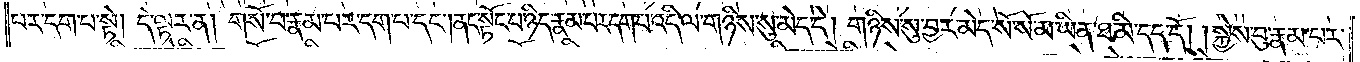པར་དག་པ་སྟེ། དེ་ལྟར་ན། གསོ་བ་རྣམ་པར་དག་པ་དང༌། ནང་སྟོང་པ་ཉིད་རྣམ་པར་དག་པ་འདི་ལ་གཉིས་སུ་མེད་དེ། གཉིས་སུ་བྱར་མེད་སོ་སོ་མ་ཡིན་ཐ་མི་དད་དོ། །སྐྱེས་བུ་རྣམ་པར་
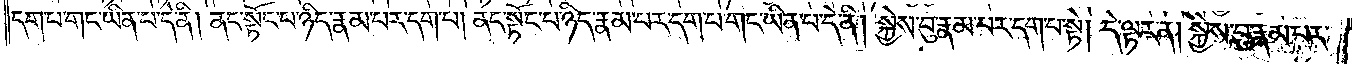དག་པ་གང་ཡིན་པ་དེ་ནི། ནང་སྟོང་པ་ཉིད་རྣམ་པར་དག་པ། ནང་སྟོང་པ་ཉིད་རྣམ་པར་དག་པ་གང་ཡིན་པ་དེ་ནི། སྐྱེས་བུ་རྣམ་པར་དག་པ་སྟེ། དེ་ལྟར་ན། སྐྱེས་བུ་རྣམ་པར་
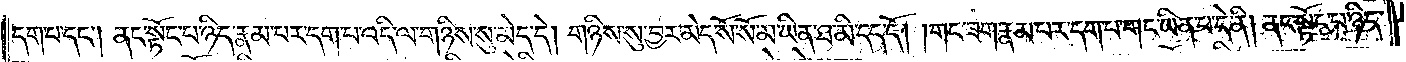དག་པ་དང༌། ནང་སྟོང་པ་ཉིད་རྣམ་པར་དག་པ་འདི་ལ་གཉིས་སུ་མེད་དེ། གཉིས་སུ་བྱར་མེད་སོ་སོ་མ་ཡིན་ཐ་མི་དད་དོ། །གང་ཟག་རྣམ་པར་དག་པ་གང་ཡིན་པ་དེ་ནི། ནང་སྟོང་པ་ཉིད་
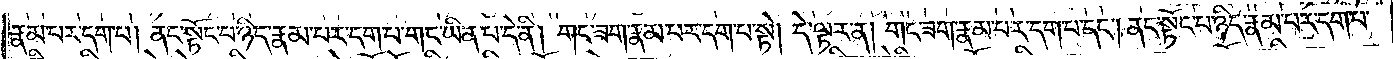རྣམ་པར་དག་པ། ནང་སྟོང་པ་ཉིད་རྣམ་པར་དག་པ་གང་ཡིན་པ་དེ་ནི། གང་ཟག་རྣམ་པར་དག་པ་སྟེ། དེ་ལྟར་ན། གང་ཟག་རྣམ་པར་དག་པ་དང༌། ནང་སྟོང་པ་ཉིད་རྣམ་པར་དག་པ་
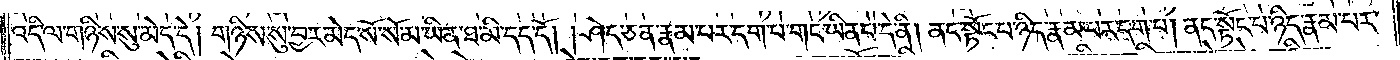འདི་ལ་གཉིས་སུ་མེད་དེ། གཉིས་སུ་བྱར་མེད་སོ་སོ་མ་ཡིན་ཐ་མི་དད་དོ། །ཤེད་ཅན་རྣམ་པར་དག་པ་གང་ཡིན་པ་དེ་ནི། ནང་སྟོང་པ་ཉིད་རྣམ་པར་དག་པ། ནང་སྟོང་པ་ཉིད་རྣམ་པར་
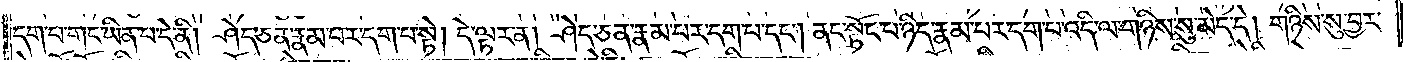དག་པ་གང་ཡིན་པ་དེ་ནི། ཤེད་ཅན་རྣམ་པར་དག་པ་སྟེ། དེ་ལྟར་ན། ཤེད་ཅན་རྣམ་པར་དག་པ་དང༌། ནང་སྟོང་པ་ཉིད་རྣམ་པར་དག་པ་འདི་ལ་གཉིས་སུ་མེད་དེ། གཉིས་སུ་བྱར་
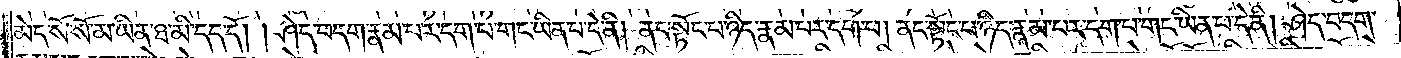མེད་སོ་སོ་མ་ཡིན་ཐ་མི་དད་དོ། །ཤེད་བདག་རྣམ་པར་དག་པ་གང་ཡིན་པ་དེ་ནི། ནང་སྟོང་པ་ཉིད་རྣམ་པར་དག་པ། ནང་སྟོང་པ་ཉིད་རྣམ་པར་དག་པ་གང་ཡིན་པ་དེ་ནི། ཤེད་བདག་
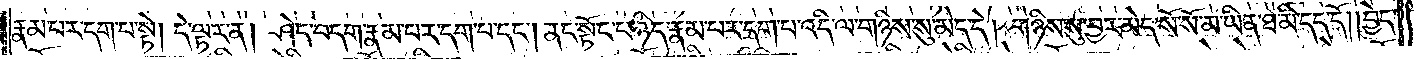རྣམ་པར་དག་པ་སྟེ། དེ་ལྟར་ན། ཤེད་བདག་རྣམ་པར་དག་པ་དང༌། ནང་སྟོང་པ་ཉིད་རྣམ་པར་དག་པ་འདི་ལ་གཉིས་སུ་མེད་དེ། གཉིས་སུ་བྱར་མེད་སོ་སོ་མ་ཡིན་ཐ་མི་དད་དོ། །བྱེད་
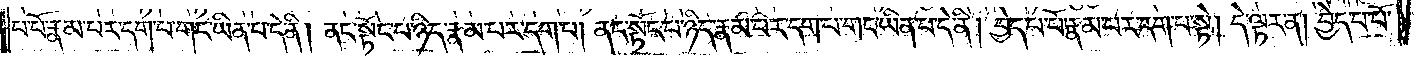པ་པོ་རྣམ་པར་དག་པ་གང་ཡིན་པ་དེ་ནི། ནང་སྟོང་པ་ཉིད་རྣམ་པར་དག་པ། ནང་སྟོང་པ་ཉིད་རྣམ་པར་དག་པ་གང་ཡིན་པ་དེ་ནི། བྱེད་པ་པོ་རྣམ་པར་དག་པ་སྟེ། དེ་ལྟར་ན། བྱེད་པ་པོ་
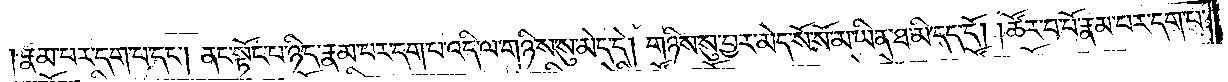རྣམ་པར་དག་པ་དང༌། ནང་སྟོང་པ་ཉིད་རྣམ་པར་དག་པ་འདི་ལ་གཉིས་སུ་མེད་དེ། གཉིས་སུ་བྱར་མེད་སོ་སོ་མ་ཡིན་ཐ་མི་དད་དོ། །ཚོར་བ་པོ་རྣམ་པར་དག་པ་
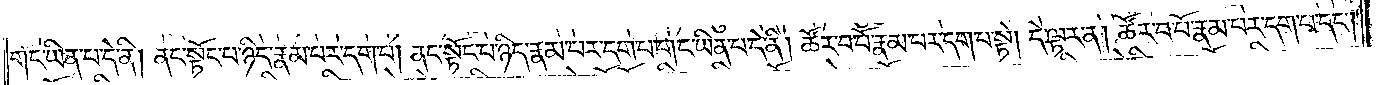གང་ཡིན་པ་དེ་ནི། ནང་སྟོང་པ་ཉིད་རྣམ་པར་དག་པ། ནང་སྟོང་པ་ཉིད་རྣམ་པར་དག་པ་གང་ཡིན་པ་དེ་ནི། ཚོར་བ་པོ་རྣམ་པར་དག་པ་སྟེ། དེ་ལྟར་ན། ཚོར་བ་པོ་རྣམ་པར་དག་པ་དང༌།
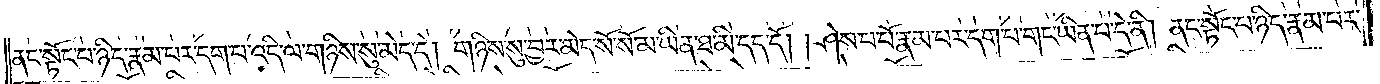ནང་སྟོང་པ་ཉིད་རྣམ་པར་དག་པ་འདི་ལ་གཉིས་སུ་མེད་དེ། གཉིས་སུ་བྱར་མེད་སོ་སོ་མ་ཡིན་ཐ་མི་དད་དོ། །ཤེས་པ་པོ་རྣམ་པར་དག་པ་གང་ཡིན་པ་དེ་ནི། ནང་སྟོང་པ་ཉིད་རྣམ་པར་
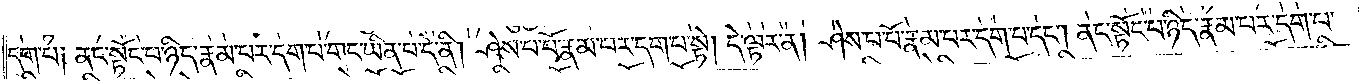དག་པ། ནང་སྟོང་པ་ཉིད་རྣམ་པར་དག་པ་གང་ཡིན་པ་དེ་ནི། ཤེས་པ་པོ་རྣམ་པར་དག་པ་སྟེ། དེ་ལྟར་ན། ཤེས་པ་རྣམ་པར་དག་པ་དང༌། ནང་སྟོང་པ་ཉིད་རྣམ་པར་དག་པ་
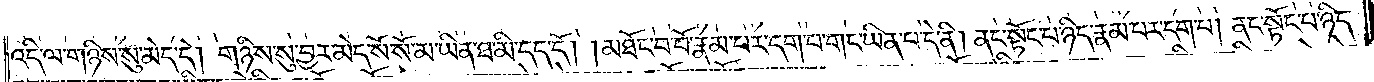འདི་ལ་གཉིས་སུ་མེད་དེ། གཉིས་སུ་བྱར་མེད་སོ་སོ་མ་ཡིན་ཐ་མི་དད་དོ། །མཐོང་བ་པོ་རྣམ་པར་དག་པ་གང་ཡིན་པ་དེ་ནི། ནང་སྟོང་པ་ཉིད་རྣམ་པར་དག་པ། ནང་སྟོང་པ་ཉིད་
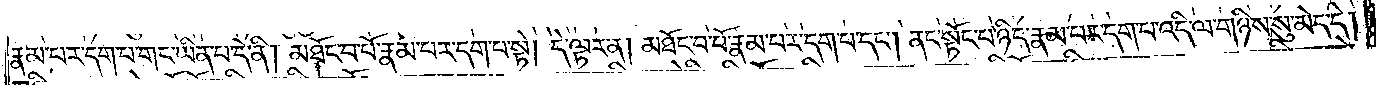རྣམ་པར་དག་པ་གང་ཡིན་པ་དེ་ནི། མཐོང་བ་པོ་རྣམ་པར་དག་པ་སྟེ། དེ་ལྟར་ན། མཐོང་བ་པོ་རྣམ་པར་དག་པ་དང༌། ནང་སྟོང་པ་ཉིད་རྣམ་པར་དག་པ་འདི་ལ་གཉིས་སུ་མེད་དེ།
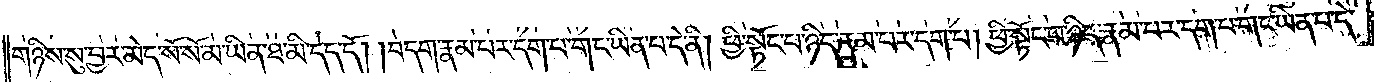གཉིས་སུ་བྱར་མེད་སོ་སོ་མ་ཡིན་པ་ཐ་མི་དད་དོ། །བདག་རྣམ་པར་དག་པ་གང་ཡིན་པ་དེ་ནི། ཕྱི་སྟོང་པ་ཉིད་རྣམ་པར་དག་པ། ཕྱི་སྟོང་པ་ཉིད་རྣམ་པར་དག་པ་གང་ཡིན་པ་དེ་
